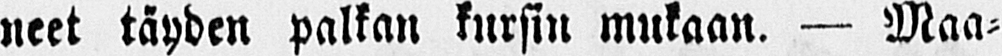neet täyden palkan kursin mukaan. — Maa-
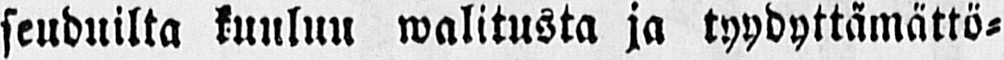seuduilta kuulun walitusta ja tyydyttämättö-
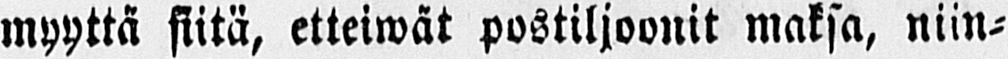myyttä siitä, etteiwät postiljoonit maksa, niin-
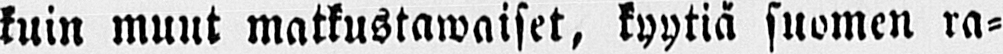kuin muut matkustawaiset, kyytiä suomen ra-
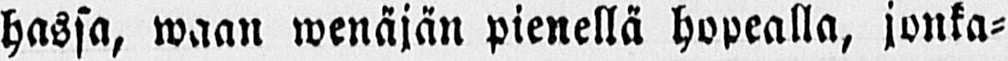hassa, waan wenäjän pienellä hopealla, jonka-
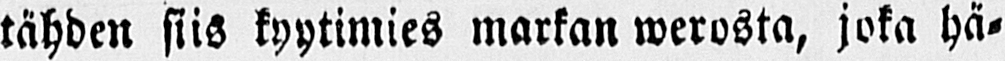tähden siis kyytimies markan werosta, joka hä-
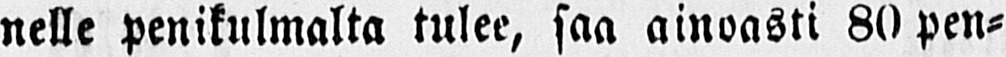nelle penikulmalta tulee, saa ainoasti 80 pen-
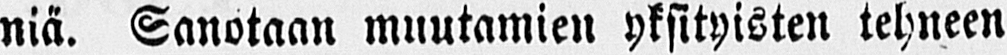niä. Sanotaan muutamien yksityisten tehneen
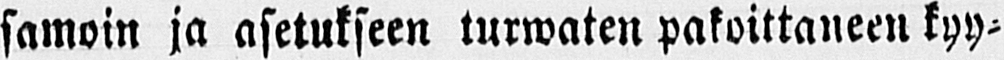samoin ja asetukseen turwaten pakoittaneen kyy-
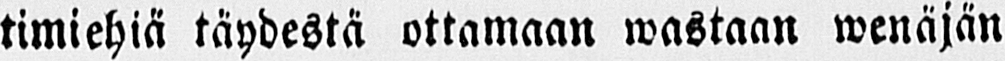timiehiä täydestä ottamaan wastaan wenäjän
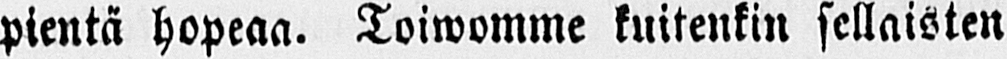pientä hopeaa. Toiwomme kuitenkin sellaisten
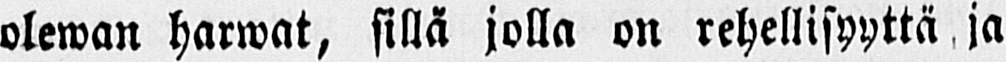olewan harwat, sillä jolla on rehellisyyttä ja
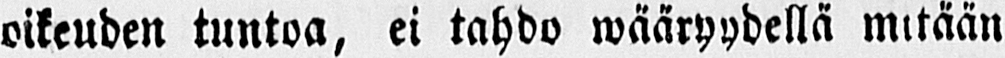oikeuden tuntoa, ei tahdo wääryydellä mitään
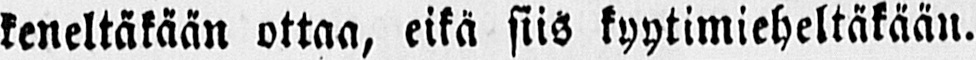keneltäkään ottaa, eikä siis kyytimieheltäkään.
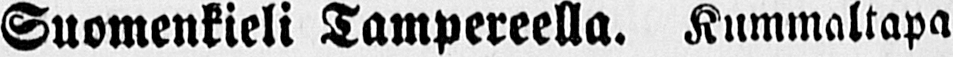Suomenkieli Tampereella. Kummaltapa
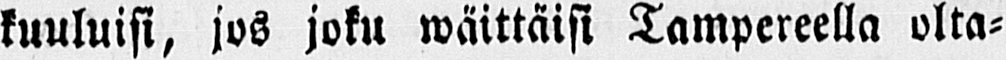kuuluisi, jos joku wäittäisi Tampereella olta-
